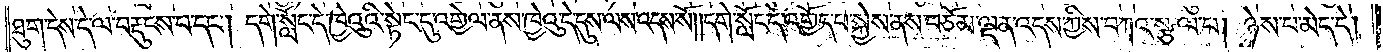ཐུག་དེས་དེ་ལ་བརྡུངས་པ་དང༌། དགེ་སློང་དེ་ཁྱེའུའི་སྟེང་དུ་འགྱེལ་ནས་ཁྱེའུ་དེ་དུས་ལས་འདས་སོ། །དགེ་སློང་དེ་འགྱོད་པ་སྐྱེས་ནས་བཅོམ་ལྡན་འདས་ཀྱིས་བཀའ་སྩལ་པ། ཉེས་པ་མེད་དེ།
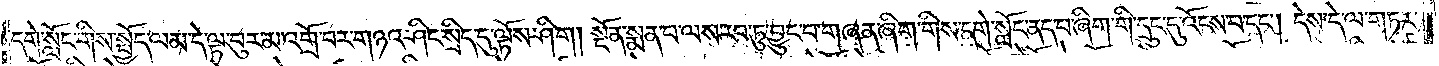དགེ་སློང་གིས་སྤྱོད་ལམ་དེ་ལྟ་བུར་མ་འགྲོ་བར་གཉའ་ཤིང་སྲིད་དུ་ལྟོས་ཤིག །སྔོན་སྨན་པ་ལས་རབ་ཏུ་བྱུང་བ་གཞན་ཞིག་གིས་དགེ་སློང་ནད་པ་ཞིག་གི་དྲུང་དུ་འོངས་བ་དང༌། དེས་དེ་ལ་གཏར་
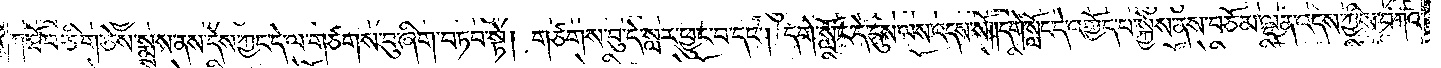ཀ་ཐོབ་ཅིག་ཅེས་སྨྲས་ནས་དེས་ཀྱང་དེ་ལ་གཙགས་བུ་ཞིག་བཏབ་སྟེ། གཙགས་བུ་དེ་སླར་ཕྱུང་བ་དང༌། དགེ་སློང་དེ་དུས་ལས་འདས་སོ། །དགེ་སློང་དེ་འགྱོད་པ་སྐྱེས་ནས་བཅོམ་ལྡན་འདས་ཀྱིས་བཀའ་
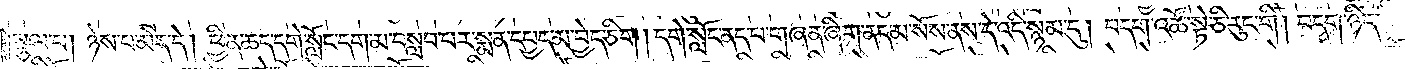སྩལ་པ། ཉེས་པ་མེད་དེ། ཕྱིན་ཆད་དགེ་སློང་དག་མ་བསླབ་པར་སྨན་དཔྱད་མ་བྱེད་ཅིག །དགེ་སློང་ནད་པ་གཞན་ཞིག་ནད་མ་སོས་ནས་དེ་འདི་སྙམ་དུ། བདག་འཚོ་སྟེ་ཅི་རུང་གི །བདག་ཉིད་
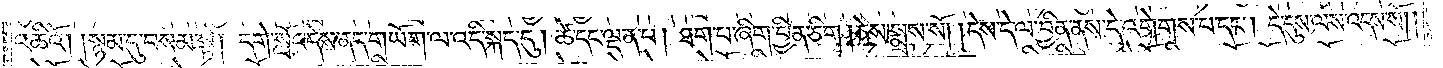འཆིའོ། །སྙམ་དུ་བསམ་སྟེ། དགེ་སློང་དེས་ནད་གཡོག་ལ་འདི་སྐད་དུ། ཚེ་དང་ལྡན་པ། ཐག་པ་ཞིག་བྱིན་ཅིག །ཅེས་སྨྲས་སོ། །དེས་དེ་ལ་བྱིན་ནས་དེ་འགེགས་པ་དང༌། དེ་དུས་ལས་འདས་སོ༎
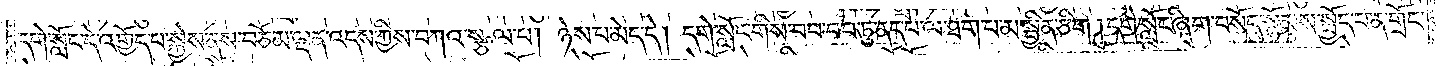དགེ་སློང་དེ་འགྱོད་པ་སྐྱེས་ནས་བཅོམ་ལྡན་འདས་ཀྱིས་བཀའ་སྩལ་པ། ཉེས་པ་མེད་དེ། དགེ་སློང་གིས་བབ་བབ་ཏུ་ནད་པ་ལ་ཐག་པ་མ་སྦྱིན་ཅིག །དགེ་སློང་ཞིག་བསོད་སྙོམས་སྤྱོད་པ་ན་གྲོང་
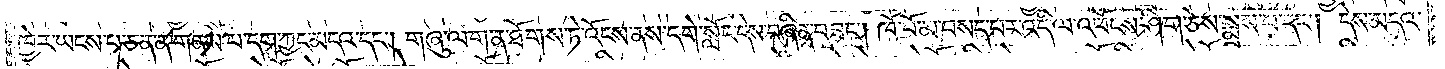ཁྱེར་ཡངས་པ་ཅན་ན་གནས་པ་དག་ཀྱང་མདའ་དང༌། གཞུ་ལག་ན་ཐོགས་ཏེ་འོངས་ནས་དགེ་སློང་དེས་བཞིན་བཟང༌། ཁོ་བོ་མ་བསད་པར་འདི་ལ་འཕོངས་ཤིག་ཅེས་སྨྲས་པ་དང༌། དེས་མདའ་
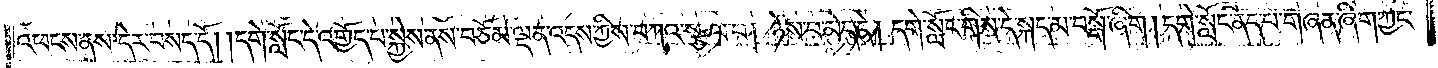འཕངས་ནས་དེར་བསད་དོ། །དགེ་སློང་དེ་འགྱོད་པ་སྐྱེས་ནས་བཅོམ་ལྡན་འདས་ཀྱིས་བཀའ་སྩལ་པ། ཉེས་པ་མེད་དེ། དགེ་སློང་གིས་དེ་སྐད་མ་བསྒོ་ཞིག །དགེ་སློང་ནད་པ་གཞན་ཞིག་ཀྱང་
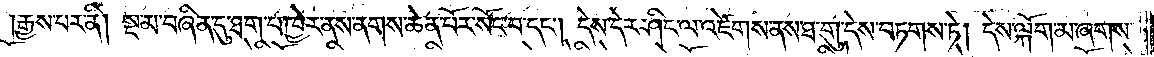རྒྱས་པར་ནི། སྔ་མ་བཞིན་དུ་ཐག་པ་ཁྱེར་ནས་ནགས་ཆེན་པོར་སོང་བ་དང༌། དེས་དེར་ཤིང་ལ་འཛེགས་ནས་ཐ་གུ་དེས་བཏགས་ཏེ། དེས་ལྐོག་མ་ཞགས་
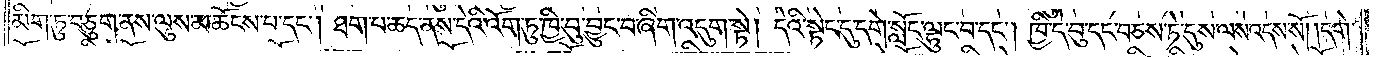མིག་ཏུ་བཅུག་ནས་ལུས་མཆོངས་པ་དང༌། ཐག་པ་ཆད་ནས་དེའི་འོག་ཏུ་ཁྱི་བུ་བྱུང་བ་བཞིན་འདུག་སྟེ། དེའི་སྟེང་དུ་དགེ་སློང་ལྷུང་བ་དང༌། ཁྱི་དེ་བུ་དང་བཅས་ཏེ་དུས་ལས་འདས་སོ། །དགེ་
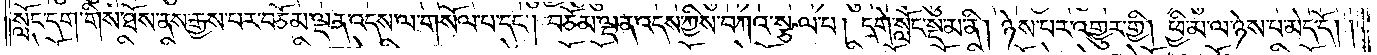སློང་དག་གིས་ཐོས་ནས་རྒྱས་པར་བཅོམ་ལྡན་འདས་ལ་གསོལ་པ་དང༌། བཅོམ་ལྡན་འདས་ཀྱིས་བཀའ་སྩལ་པ། དགེ་སློང་སྔ་མ་ནི། ཉེས་པར་འགྱུར་གྱི། ཕྱི་མ་ལ་ཉེས་པ་མེད་དོ། །
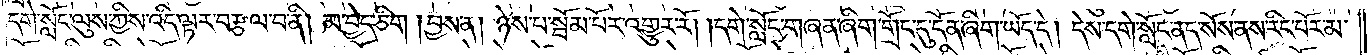དགེ་སློང་ལུས་ཀྱིས་འདི་ལྟར་བརྩལ་བ་ནི། མ་བྱེད་ཅིག །བྱས་ན། ཉེས་པ་སྦོམ་པོར་འགྱུར་རོ། །དགེ་སློང་གཞན་ཞིག་གྲོང་དུ་དོན་ཞིག་ཡོད་དེ། དེས་དགེ་སློང་ནད་སོས་ནས་རིང་པོར་མ་
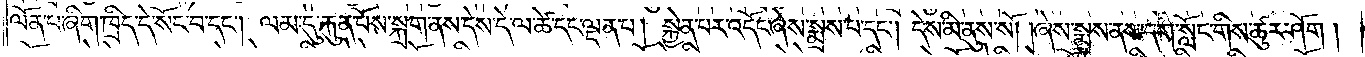ལོན་པ་ཞིག་ཁྲིད་དེ་སོང་བ་དང༌། ལམ་དུ་རྐུན་པོས་སྐྲག་ནས་དེས་དེ་ལ་ཚེ་དང་ལྡན་པ། སྐྱེན་པར་འདོང་ཞེས་སྨྲས་པ་དང༌། དེས་མི་ནུས་སོ། །ཞེས་སྨྲས་ནས་དགེ་སློང་གིས་ཚུར་ཤོག །
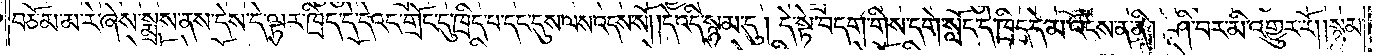བཅོམ་མ་རེ་ཞེས་སྨྲས་ནས་དེས་དེ་ལྟར་ཁྲིད་དེ་དེའང་གྲོང་དུ་ཁྲིད་པ་དང་དུས་ལས་འདས་སོ། །དེ་འདི་སྙམ་དུ། དེ་སྟེ་བདག་གིས་དགེ་སློང་དེ་ཁྲིད་དེ་མ་འོངས་ན་ནི། ཤི་བར་མི་འགྱུར་རོ། །སྙམ་
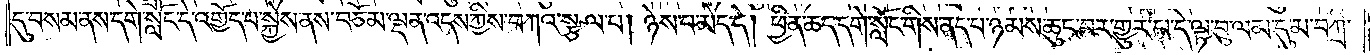དུ་བསམ་ནས་དགེ་སློང་དེ་འགྱོད་པ་སྐྱེས་ནས་བཅོམ་ལྡན་འདས་ཀྱིས་བཀའ་སྩལ་པ། ཉེས་པ་མེད་དེ། ཕྱིན་ཆད་དགེ་སློང་གིས་ནད་པ་ཉམས་ཆུང་བར་གྱུར་པ་དེ་ལྟ་བུ་ལམ་དུ་མ་བཀྲ་
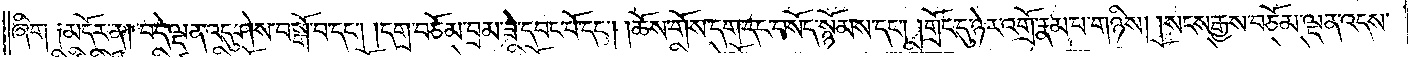ཞིག ༑མདོར་ན། བདེ་ལྡན་འདུ་ཤེས་བསྒོ་བ་དང༌། །དགྲ་བཅོམ་བྲམ་ཟེ་དབང་པོ་དང༌། །ཆོས་གོས་དག་དང་བསོད་སྙོམས་དང༌། །གྲོང་དུ་ཉེས་འགྲོ་རྣམ་པ་གཉིས། །སངས་རྒྱས་བཅོམ་ལྡན་འདས་
